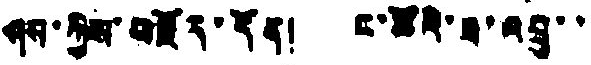ཤས་ཀྱིས་བརྗོད་དོན། ང་ཚོའི་ཟ་འབྲུ་་
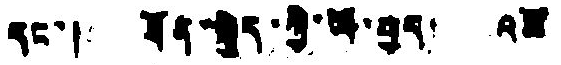དང་། ཐོན་སྐྱེད་ཀྱི་ལོ་བྱད་ འཚོ
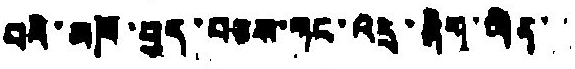བའི་མཁོ་བྱད་བཅས་གང་འདྲ་ཞིག་ཡིན་་
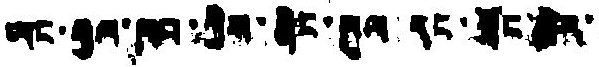ཡང་རྒྱལ་ཁབ་ཀྱིས་ཞིང་ཁུལ་དང་གྲོང་ཁྱེར་
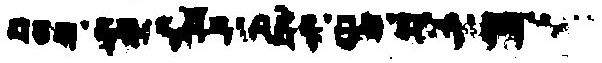བཅས་ནས་དཁོར་འདྲེན་བྱས་པ་ཤ་ལྷག་་་་་
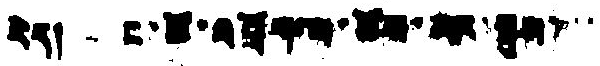རེད། ང་ཚོ་འབྲོག་པ་ཚོས་ལས་སྤུས་་་
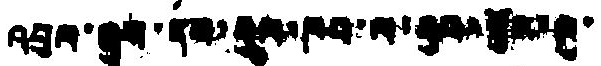འབུལ་ཞུས་དམ་རྒྱལ་ཁབ་ལ་རྒྱལ་སྐྱོང་ཁུ་
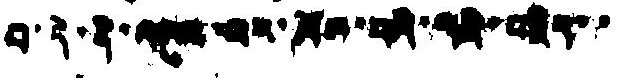བ་དེ་ནི་འཁུལ་བར་ལོང་བའི་གཟི་བརྗིད་་
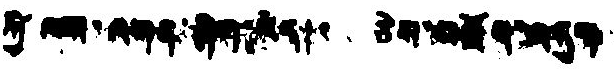ཀྱི་ལས་འགན་ཞིག་རེད། ཅེས་བརྗོད་འདུག
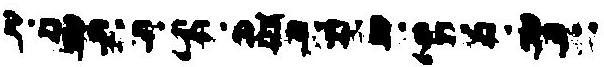དེ་བཞེད་ད་དུང་འབྲོག་པ་མི་ཉུང་བ་ཞིག་་
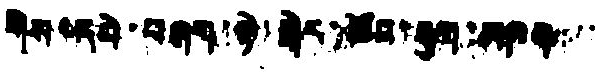གིས་དཔེ་བཞག་སྟེ་སྒོར་ཚོང་རྒྱག་མཁན་་་
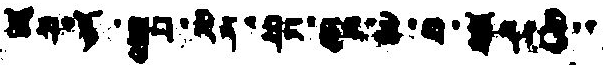ཚོས་ཉོ་སྒྲུབ་རིན་ཐང་ཆུང་ཆེ་བ་སྤྲོད་་་་
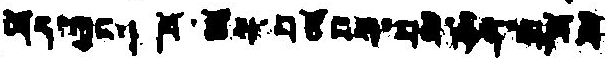ཡོད་ཀྱང་། ཁོ་ཚོས་བཙོངས་བའི་ཉིན་མཁོའི་
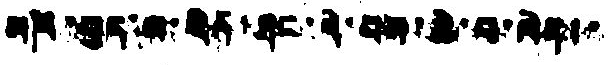མཁོ་བུད་ལ་རིན་ཐང་རེ་བས་ཆེ་བ་ལེན་་
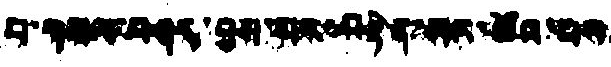པ་གསལ་བཤར་བྱས་པར་བརྟེན་སར་ཚོས་པས་
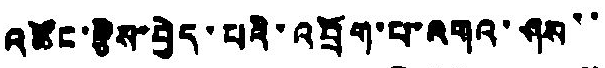འཚོང་རྩིས་བྱེད་པའི་འབྲོག་པ་འགའ་ཤས་་
